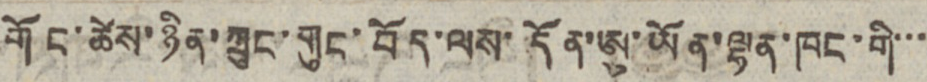གོང་ཚེས་ཉིན་ཀྲུང་གུང་བོད་ལས་དོན་ཨུ་ཡོན་ལྷན་ཁང་གི་་་
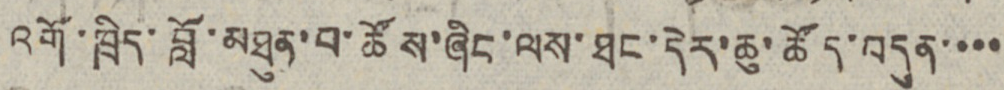འགོ་ཁྲིད་བློ་མཐུན་པ་ཚོས་ཞིང་ལས་ཐང་དེར་ཆུ་ཚོད་བདུན་་་་
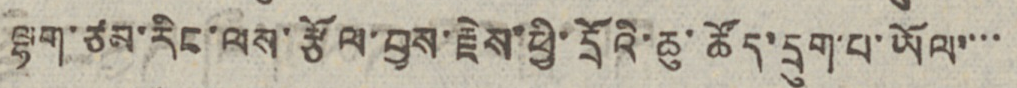ལྷག་ཙམ་རིང་ལས་རྩོལ་བྱས་རྗེས་ཕྱི་དྲོའི་ཆུ་ཚོད་དྲུག་པ་ཡོལ་་་་
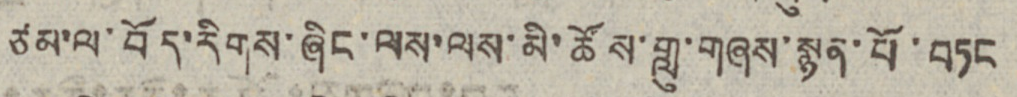ཙམ་ལ་བོད་རིགས་ཞིང་ལས་ལས་མི་ཚོས་གླུ་གཞས་སྙན་པོ་བཏང
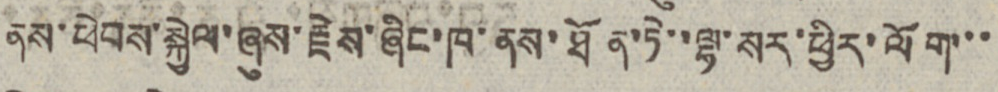ནས་ཕེབས་སྐྱེལ་ཞུས་རྗེས་ཞིང་ཁ་ནས་ཐོན་ཏེ་་ལྷ་སར་ཕྱིར་ལོག་་་
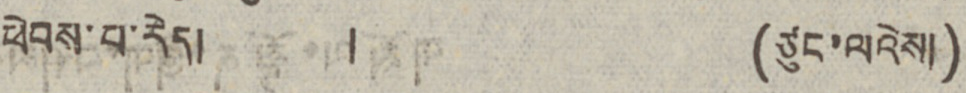ཕེབས་པ་རེད། ། (ཙུང་ལའེས།)
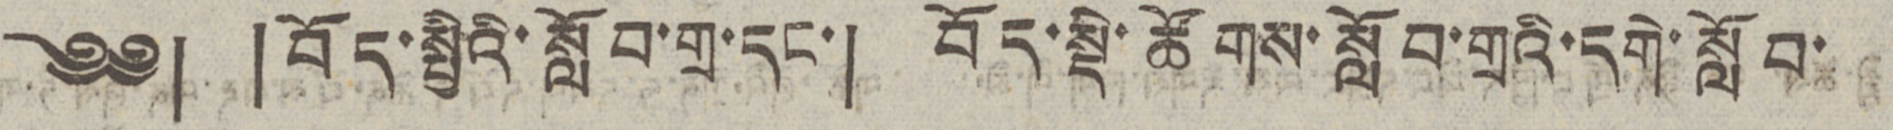༄༅། །བོད་སྤྱིའི་སློབ་གྲ་དང་། བོད་སྡེ་ཚོགས་སློབ་གྲའི་དགེ་སློབ་
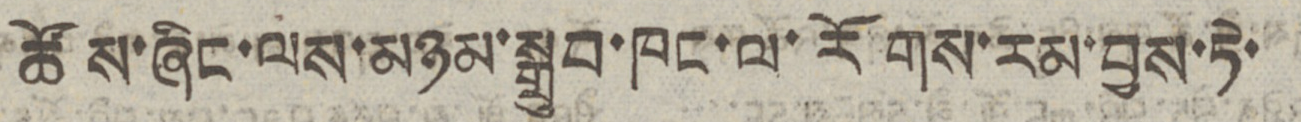ཚོས་ཞིང་ལས་མཉམ་སྒྲུབ་ཁང་ལ་རོགས་རམ་བྱས་ཏེ་
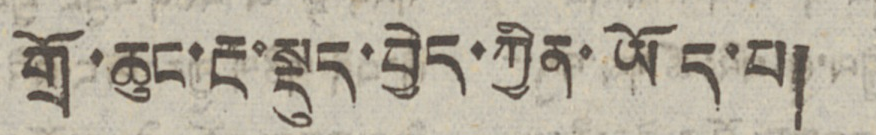གྲོ་ཆུང་རྔ་སྡུད་བྱེད་ཀྱིན་ཡོད་པ།
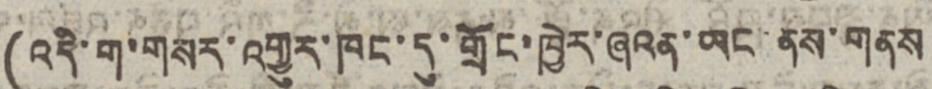(འདི་ག་གསར་འགྱུར་ཁང་དུ་གྲོང་ཁྱེར་ཞའན་ཡང་ནས་གནས
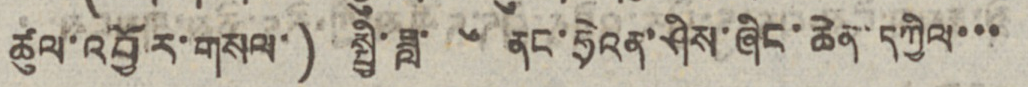ཚུལ་འབྱོར་གསལ་) སྤྱི་ཟླ་ ༦ ནང་ཧྲེའན་ཤིས་ཞིང་ཆེན་དཀྱིལ་་་
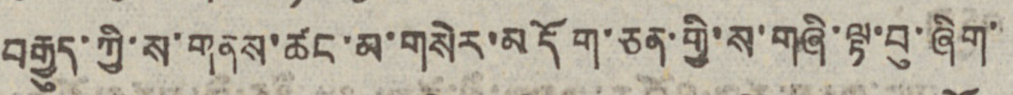བརྒྱུད་ཀྱི་ས་གནས་ཚང་མ་གསེར་མདོག་ཅན་གྱི་ས་གཞི་ལྟ་བུ་ཞིག་
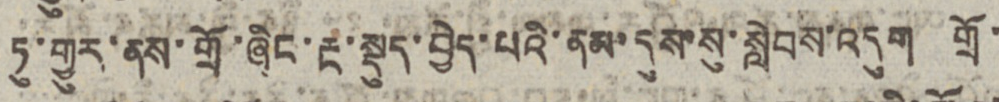ཏུ་གྱུར་ནས་གྲོ་ཞིང་རྔ་སྡུད་བྱེད་པའི་ནམ་དུས་སུ་སླེབས་འདུག གྲོ་
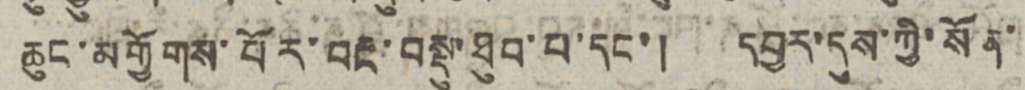ཆུང་མགྱོགས་པོར་བརྔ་བསྡུ་ཐུབ་པ་དང་། དབྱར་དུས་ཀྱི་སོན་
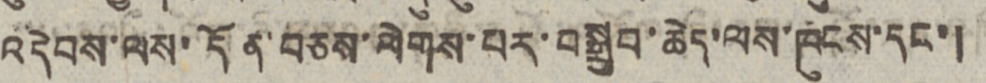འདེབས་ལས་དོན་བཅས་ལེགས་པར་བསྒྲུབ་ཆེད་ལས་ཁུངས་དང་།
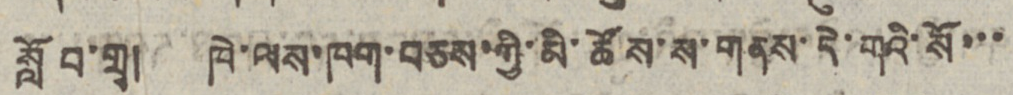སློབ་གྲྭ། ཁེ་ལས་ཁག་བཅས་ཀྱི་མི་ཚོས་ས་གནས་དེ་གའི་སོ་་་
